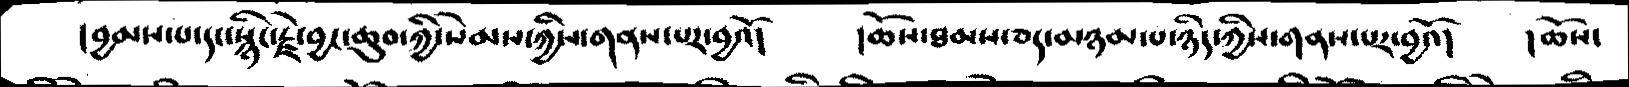།བྱམས་པ་དང་སྙིང་རྗེ་བྱང་ཆུབ་ཀྱི་སེམས་ཀྱིས་གནས་པར་བྱའོ།   །ཆོས་ཐམས་ཅད་མཉམ་པ་ཉིད་ཀྱིས་གནས་པར་བྱའོ།  །ཆོས་
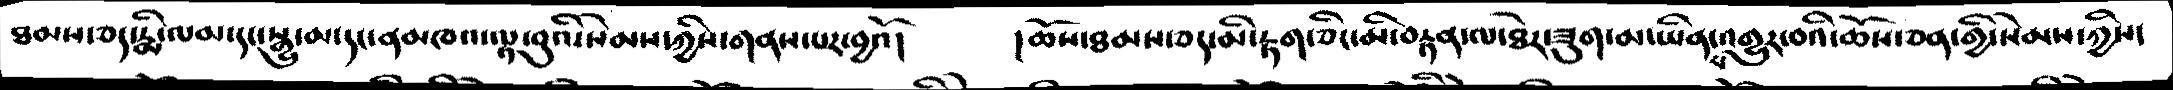ཐམས་ཅད་རྨི་ལམ་དང་སྒྱུ་མ་དང་ནམཁའ་ལྟ་བུའི་སེམས་ཀྱིས་གནས་པར་བྱའོ།   །ཆོས་ཐམས་ཅད་མི་རྟག་ཅིང་མི་བརྟན་ལ་ཐེར་ཟུག་མ་ཡིན་པ་འགྱུར་བའི་ཆོས་ཅན་གྱི་སེམས་ཀྱིས་
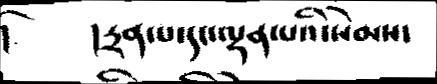།  །དྲན་པ་དང་ལྡན་པའི་སེམས་
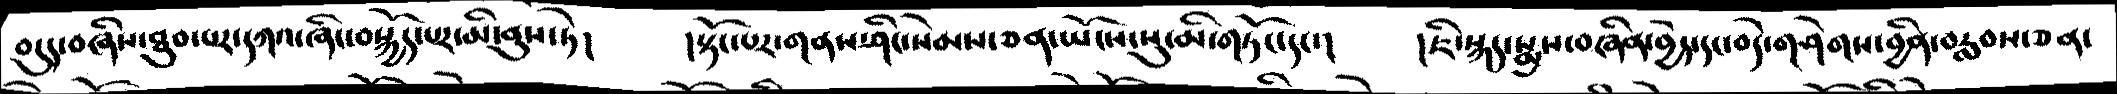བདུད་བཞིས་ཐུབ་པར་དཀའ་ཞིང་བསྐྱོད་པར་མི་ནུས་ཏེ།   །སྟོང་པར་གནས་ཤིང་སེམས་ཅན་ཡོངས་སུ་མི་གཏོང་དང་།  །ཇི་སྐད་སྨྲས་བཞིན་བྱེད་དང་བདེ་གཤེགས་བྱིན་བརླབས་ཅན་
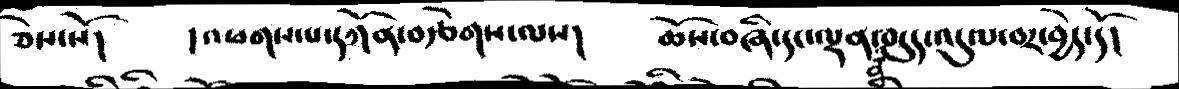ཅེས་སོ།   །འཕགས་པ་དཀོན་བརྩེགས་ལས།  ཆོས་བཞི་དང་ལྡན་ན་བདུད་འདུལ་བར་བྱེད་དོ།
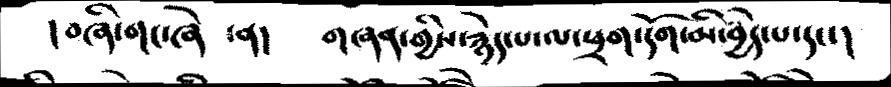།བཞི་གང་ཞེ  ་ན།   གཞན་གྱིས་རྙེད་པ་ལ་ཕྲག་དོག་མི་བྱེད་པ་དང་།
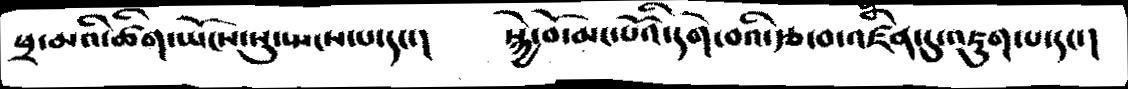ཕྲ་མའི་ཚིག་ཡོངས་སུ་སྤངས་པ་དང་།   སྐྱེ་བོ་མང་པོའི་དགེ་བའི་རྩ་བ་འཛིན་དུ་འཇུག་པ་དང་།
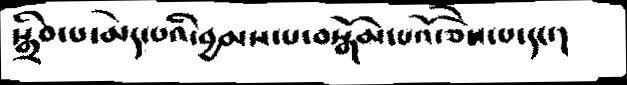སྒྲིབ་པ་མེད་པའི་བྱམས་པ་བསྒོམ་པའོ་ཅེས་པ་དང་།
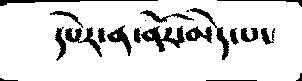དཔེར་ན་ནོར་མེད་པ་
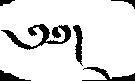༄༅།
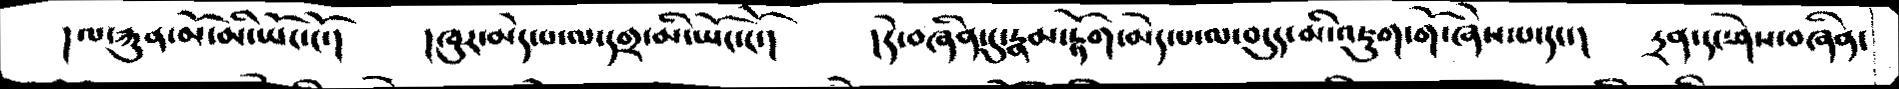།ལ་རྐུན་མོ་མི་ཡོང་ངོ་།   །ཁུར་མེད་པ་ལ་དགྲ་མི་ཡོང་ངོ་།   །དེ་བཞིན་དུ་རྣམ་རྟོག་མེད་པ་ལ་བདུད་མི་འཇུག་གོ་ཞེས་པ་དང་།   དྲན་དང་ཤེས་བཞིན་
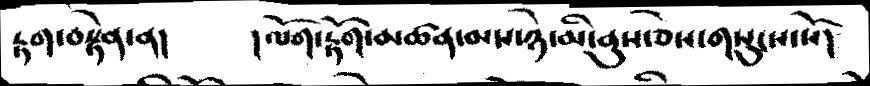རྟག་བསྟེན་ན།     །ལོག་རྟོག་མཚན་མས་ཉེ་མི་ནུས་ཅེས་གསུངས་སོ།
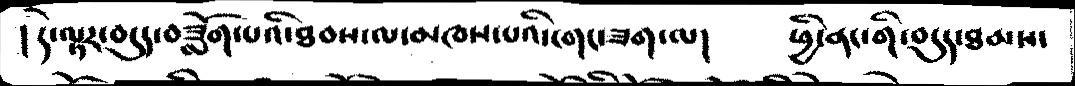།དེ་ལྟར་བདུད་བཟློག་པའི་ཐབས་ལ་མཁས་པའི་གང་ཟག་ལ།    ཕྱི་ནང་གི་བདུད་ཐམས་
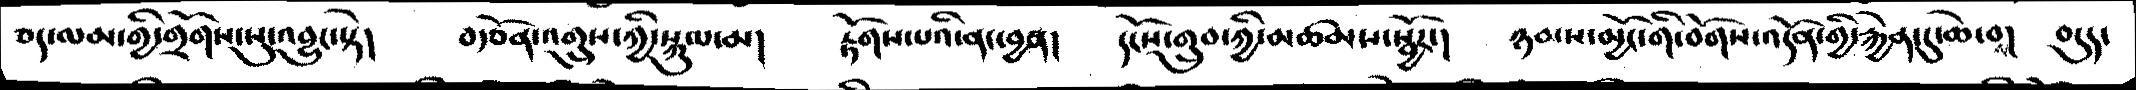ཅད་ལམ་གྱི་གྲོགས་སུ་འབྱུང་སྟེ།   བརྩོན་འགྲུས་ཀྱི་སྐུལ་མ།   རྟོགས་པའི་ནང་བྱན།   དངོས་གྲུབ་ཀྱི་མཚམས་སྦྱོར་་།  ཉམས་མྱོང་གི་བོགས་འདོན་གྱི་རྐྱེན་དུ་ཆེ་བས།  བདུད་
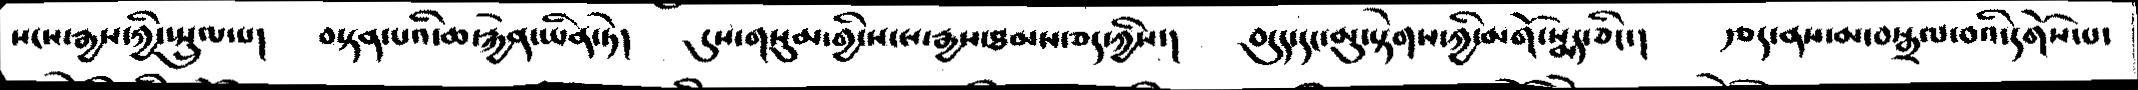སངས་རྒྱས་ཀྱི་སྤྲུལ་པ།   བསྟན་པའི་ཆ་རྐྱེན་ཡིན་ཏེ།   དུས་གསུམ་གྱི་སངས་རྒྱས་ཐམས་ཅད་ཀྱིས།   བདུད་དང་མུ་སྟེགས་ཀྱི་མགོ་སྨད་ཅིང་།  རྩད་ནས་མ་སྒྲལ་བའི་དགོས་པ་
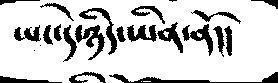ཡང་དེ་ཉིད་ཡིན་ནོ།།
